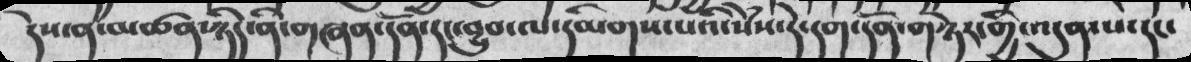དེས་ན་མཚན་ཉིད་ནི་གཞན་དོན་དང་བྱུབ་ལ་དམིགས་པའི་སེཾས་དེ་དག་དོན་གཉེར་གྱི་འདུན་པ་དང་
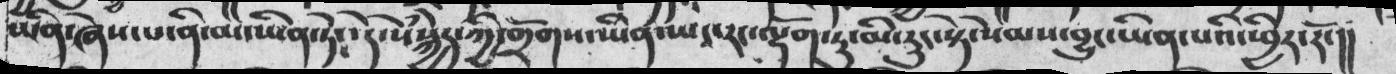ཡིན་ཞེས་པ་ནི་མ་ཡིན་ཏེ་དེ་སེཾསྐྱེད་ཀྱི་གྲོགས་ཡིན་ཡང་རང་ལྡོག་ཏུ་མི་རུང་སྟེ་སེམས་བྱུང་ཡིན་པའི་ཕྱིར་རོ་།།
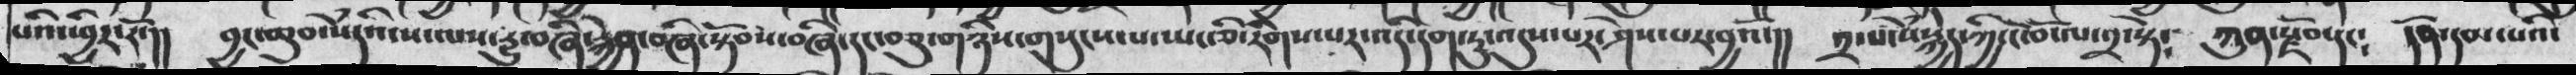པའི་ཕྱིར་རོ་།།  བྱང་ཆུབ་སེཾདའི་ས་ལས་རྱུ་བཞི་རྐྱེན་བཞི་སྟོབས་བཞི་དང་བཅུ་གཉིས་གསུངས་པ་ཡང་ཅི་རིགས་པར་འདི་དག་ཏུ་འདུས་པར་ཤེས་པར་བྱའོ་།།  ༢་པ་སེཾསྐྱེད་ཀྱི་ངོ་བོ་ལ་༢་སྟེ༴  ཀུན་རྫོབ་དང༴  དོན་དམ་པའི་
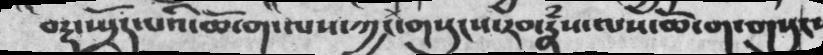བརྡ་སྤྲོད་པའི་ཆོ་ག་ལས་ཀྱང་གསུངས་རབ་རྣཾས་ལས་ཆོ་ག་གསུང་
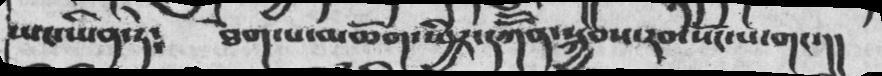ཡང་ཡིན་ཏེ༴   ཐེགས་པ་མཆོག་ཕྱིར་དཀོོན་སྐྱབས་རབ་སོང་པ་གང་།།
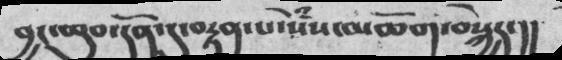བྱང་ཆུབ་དོན་དུ་བརྟན་པ་སེཾས་མཆོག་བསྐྱེད་།།
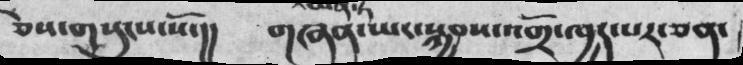ཅེས་གསུངས་སོ་།།  གཞན་ཡང་སྐྱབས་འགྲོ་ཁྱད་པར་ཅན་
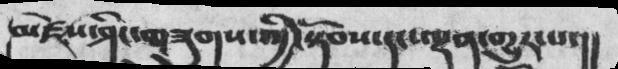མཛེས་ཤིང་གཟུགས་ཀྱི་སྟོབས་དང་ལྡན་གྱུར་པ་།།
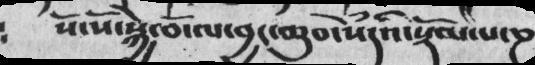སོ་སོ་སྐྱེ་བོ་ལ་བྱང་ཆུབ་སེཾདའི་སྡོམ་པ་ཎ
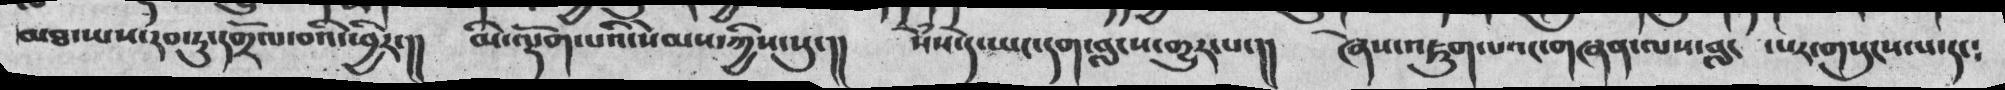མཐ་ཡས་རབ་ཏུ་དགྲོལ་བའི་ཕྱིར་།།  མི་ལྡོག་པའོ་སེམས་ཀྱིས་སུ་།།  སེཾས་དེས་ཡང་དག་བླངས་གྱུར་པ་།།  ཞེས་འཇུག་པའང་གཞན་ལས་བླ་   པར་གསུངས་པ་དང༴
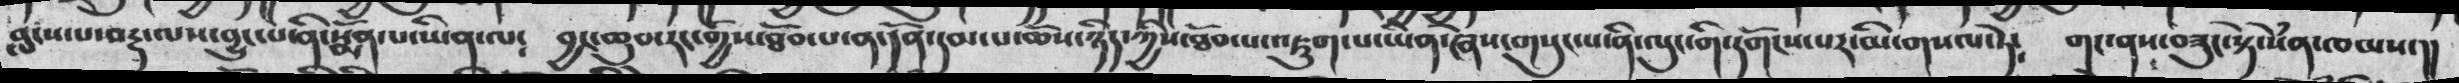བླངས་པ་བརྡ་ལས་བྱུང་པ་ནི་སྨོན་པ་ཡིན་ལ༴  བྱང་ཆུབ་དང་གྱིས་ཐོབ་པ་ན་དོན་དམ་པ་ཆོས་ཉིད་ཀྱིས་ཐོབ་པ་འཇུག་པ་ཡིན་ཞེས་གསུང་པ་ནི་ལུང་གི་དགོངས་པར་མི་གསལ་ཏེ༴   གང་ནད་བཟུང་སྟེ་སེཾན་ཁམས་།།
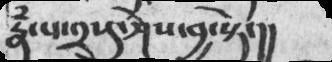རྣཾ་པ་༢སུ་ཤེས་བྱ་སྟེ་།།
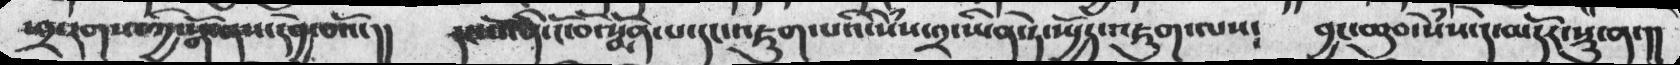ཕྲ་རགས་ཀྱི་སྒོ་ནས་དབྱེ་བའོ་།།   དང་པོ་ནི་ངོ་བོ་སྨོན་པ་དང་འཇུག་པའི་སེཾས་༢་ཡིན་ཏེ་ཡྱོད་འཇུག་ལས༴    བྱང་ཆུབ་སེཾས་དེ་མདོར་སྡུ་ན་།།
